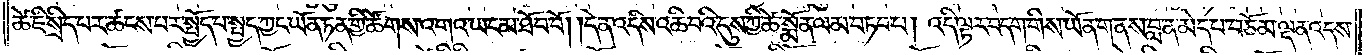ཚེ་ཇི་སྲིད་པར་ཚངས་པར་སྤྱོད་པ་སྤྱད་ཀྱང་ཡོན་ཏན་གྱི་ཚོགས་འགའ་ཡང་མ་ཐོབ་བོ། །དེ་ན་འདིས་འཆི་བའི་དུས་ཀྱི་ཆེ་སྨོན་ལམ་བཏབ་པ། འདི་ལྟར་བདག་གིས་ཡོན་གནས་བླ་ན་མེད་པ་བཅོམ་ལྡན་འདས་
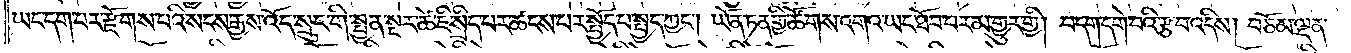ཡང་དག་པར་རྫོགས་པའི་སངས་རྒྱས་འོད་སྲུང་གི་སྤྱན་སྔར་ཚེ་ཇི་སྲིད་པར་ཆངས་པར་སྤྱོད་པ་སྤྱད་ཀྱང༌། ཡོན་ཏན་གྱི་ཚོགས་འགའ་ཡང་ཐོབ་པར་མ་གྱུར་གྱི། བདག་དགེ་བའི་རྩ་བ་འདིས། བཅོམ་ལྡན་
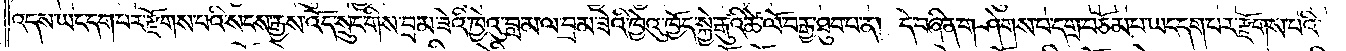འདས་ཡང་དག་པར་རྫོགས་པའི་སངས་རྒྱས་འོད་སྲུང་གིས་བྲམ་ཟེའི་ཁྱེའུ་བླ་མ་ལ་བྲམ་ཟེའི་ཁྱེའུ་ཁྱོད་སྐྱེ་རྒུའི་ཚེ་ལོ་བརྒྱ་ཐུབ་པ་ན། དེ་བཞིན་གཤེགས་པ་དགྲ་བཅོམ་པ་ཡང་དག་པར་རྫོགས་པའི་
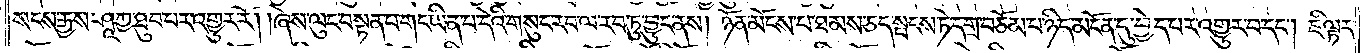སངས་རྒྱས་ཤཱཀྱ་ཐུབ་པར་འགྱུར་རོ། །ཞེས་ལུང་བསྟན་པ་གང་ཡིན་པ་དེའི་གསུང་རབ་ལ་རབ་ཏུ་བྱུང་ནས། ཉོན་མོངས་པ་ཐམས་ཅད་སྤངས་ཏེ་དགྲ་བཅོམ་པ་ཉིད་མངོན་དུ་བྱེད་པར་འགྱུར་བ་དང༌། ཇི་ལྟར་
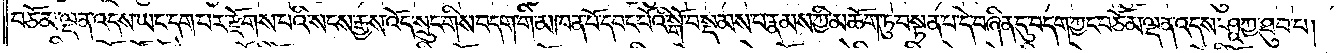བཅོམ་ལྡན་འདས་ཡང་དག་པར་རྫོགས་པའི་སངས་རྒྱས་འོད་སྲུང་གིས་བདག་གི་མཁན་པོ་དབང་པོའི་སྒོ་བསྡམས་པ་རྣམས་ཀྱི་མཆོག་ཏུ་བསྟན་པ་དེ་བཞིན་དུ་བདག་ཀྱང་བཅོམ་ལྡན་འདས་ཤཱཀྱ་ཐུབ་པ།
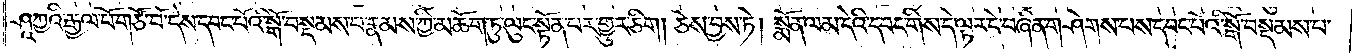ཤཱཀྱའི་རྒྱལ་པོ་གཙོ་བོ་དེས་དབང་པོའི་སྒོ་བསྡམས་པ་རྣམས་ཀྱི་མཆོག་ཏུ་ལུང་སྟོན་པར་གྱུར་ཅིག། ཅེས་བྱས་ཏེ། སྨོན་ལམ་དེའི་དབང་གིས་དེ་ལྟར་དེ་བཞིན་གཤེགས་པས་དབང་པོའི་སྒོ་བསྡམས་པ་
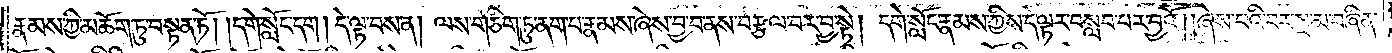རྣམས་ཀྱི་མཆོག་ཏུ་བསྟན་ཏོ། །དགེ་སློང་དག། དེ་ལྟ་བས་ན། ལས་གཅིག་ཏུ་ནག་པ་རྣམས་ཞེས་བྱ་བ་ནས་བརྩལ་བར་བྱ་སྟེ། དགེ་སློང་རྣམས་ཀྱིས་དེ་ལྟར་བསླབ་པར་བྱའོ། །ཞེས་པའི་བར་སྔ་མ་བཞིན་
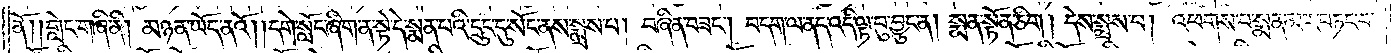ནོ། །གླེང་གཞི་ནི། མཉན་ཡོད་ནའོ། །དགེ་སློང་ཞིག་ན་སྟེ་དེ་སྨན་པའི་དྲུང་དུ་སོང་ནས་སྨྲས་པ། བཞིན་བཟང༌། བདག་ལ་ནད་འདི་ལྟ་བུ་བྱུང་ན། སྨན་སྟོན་ཅིག། དེས་སྨྲས་པ། འཕགས་པ་སྨན་མར་བཏང་བ་
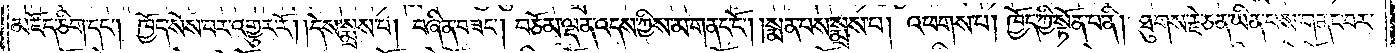མཛོད་ཅིག་དང༌། ཁྱོད་སོས་པར་འགྱུར་རོ། །དེས་སྨྲས་པ། བཞིན་བཟང༌། བཅོམ་ལྡན་འདས་ཀྱིས་མ་གནང་ངོ༌། །སྨན་པས་སྨྲས་པ། འཕགས་པ། ཁྱོད་ཀྱི་སྟོན་པ་ནི། ཐུགས་རྗེ་ཅན་ཡིན་པས་གནང་བར་
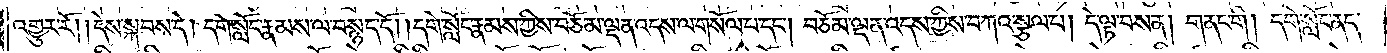འགྱུར་རོ། །དེས་སྐབས་དེ། དགེ་སློང་རྣམས་ལ་བསྙད་དོ། །དགེ་སློང་རྣམས་ཀྱིས་བཅོམ་ལྡན་འདས་ལ་གསོལ་པ་དང༌། བཅོམ་ལྡན་འདས་ཀྱིས་བཀའ་སྩལ་པ། དེ་ལྟ་བས་ན། གནང་གི། དགེ་སློང་ནད་
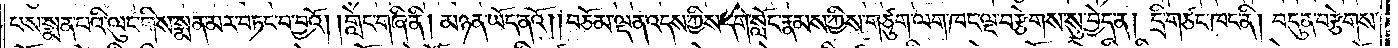པས་སྨན་པའི་ལུང་གིས་སྨན་མར་བཏང་བ་བྱའོ། །གླེང་གཞི་ནི། མཉན་ཡོད་ནའོ། །བཅོམ་ལྡན་འདས་ཀྱིས་དགེ་སློང་རྣམས་ཀྱིས་གཙུག་ལག་ཁང་ལྔ་བརྩེགས་སུ་བྱེད་ན། དྲི་གཙང་ཁང་ནི། བདུན་བརྩེགས་
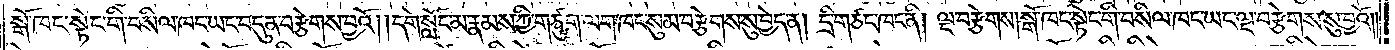སྒོ་ཁང་སྟེང་གི་བསིལ་ཁང་ཡང་བདུན་བརྩེགས་བྱའོ། །དགེ་སློང་མ་རྣམས་ཀྱི་གཙུག་ལག་ཁང་སུམ་བརྩེགས་སུ་བྱེད་ན། དྲི་གཙང་ཁང་ནི། ལྔ་བརྩེགས། སྒོ་ཁང་སྟེང་གི་བསིལ་ཁང་ཡང་ལྔ་བརྩེགས་སུ་བྱའོ༎
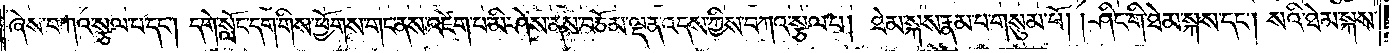ཞེས་བཀའ་སྩལ་པ་དང༌། དགེ་སློང་དག་གིས་ཕྱོགས་གང་ནས་འཛེག་པ་མི་ཤེས་ནས་བཅོམ་ལྡན་འདས་ཀྱིས་བཀའ་སྩལ་པ། ཐེམ་སྐས་རྣམ་པ་གསུམ་པོ། །ཤིང་གི་ཐེམ་སྐས་དང༌། སའི་ཐེམ་སྐས་
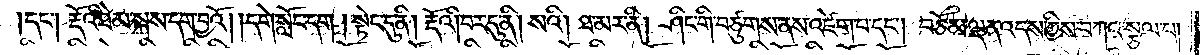དང༌། རྡོའི་ཐེམ་སྐས་དག་བྱའོ། །དགེ་སློང་དག །སྟེང་དུ་ནི། རྡོའི། བར་དུ་ནི། སའི། ཐ་མར་ནི། ཤིང་གི་བཙུགས་ནས་འཛེག་པ་དང༌། བཅོམ་ལྡན་འདས་ཀྱིས་བཀའ་སྩལ་པ།
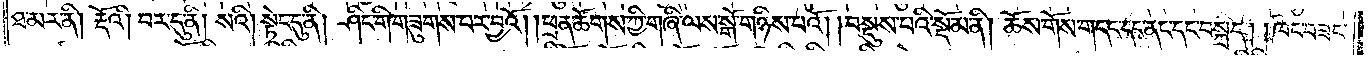ཐ་མར་ནི། རྡོའི། བར་དུ་ནི། སའི། སྟེང་དུ་ནི། ཤིང་གི་གཟུགས་པར་བྱའོ། །ཕྲན་ཚོགས་ཀྱི་གཞི་ལས་སྒོ་གཉིས་པའོ།    །བསྡུས་པའི་སྡོམ་ནི། ཆོས་གོས་གདང་དང་ནང་དང་བསྐྲད། །ཁང་བཟང་
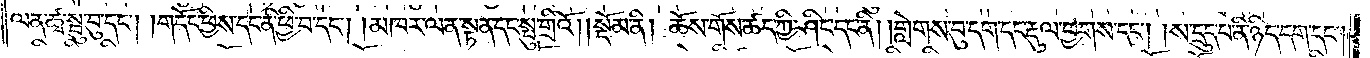ལན་ཚྭ་སྦུ་བུ་དང༌། །གདོང་ཕྱིས་དང་ནི་ཕྱི་བ་དང༌། །མཁར་ལན་སྟན་དང་སྤུ་གྲིའོ།    །སྡོམ་ནི། ཆོས་གོས་ཚད་ཀྱི་ཤིང་དང་ནི། །གླེགས་བུ་དག་དང་རྡུལ་ཕྱགས་དང༌། །ས་དྲུད་པ་ནི་ཉིད་དག་དང༌།
